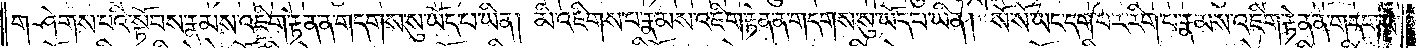གཤེགས་པའི་སྟོབས་རྣམས་འཇིག་རྟེན་ན་གདགས་སུ་ཡོད་པ་ཡིན། མི་འཇིགས་པ་རྣམས་འཇིག་རྟེན་ན་གདགས་སུ་ཡོད་པ་ཡིན། སོ་སོ་ཡང་དག་པར་རིག་པ་རྣམས་འཇིག་རྟེན་ན་གདགས་
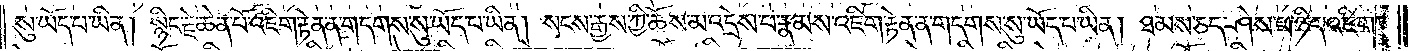སུ་ཡོད་པ་ཡིན། སྙིང་རྗེ་ཆེན་པོ་འཇིག་རྟེན་ན་གདགས་སུ་ཡོད་པ་ཡིན། སངས་རྒྱས་ཀྱི་ཆོས་མ་འདྲེས་པ་རྣམས་འཇིག་རྟེན་ན་གདགས་སུ་ཡོད་པ་ཡིན། ཐམས་ཅད་ཤེས་པ་ཉིད་འཇིག་
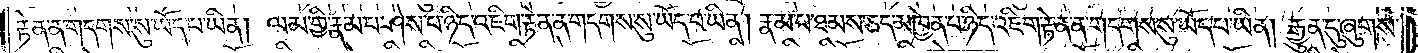རྟེན་ན་གདགས་སུ་ཡོད་པ་ཡིན། ལམ་གྱི་རྣམ་པ་ཤེས་པ་ཉིད་འཇིག་རྟེན་ན་གདགས་སུ་ཡོད་པ་ཡིན། རྣམ་པ་ཐམས་ཅད་མཁྱེན་པ་ཉིད་འཇིག་རྟེན་ན་གདགས་སུ་ཡོད་པ་ཡིན། རྒྱུན་དུ་ཞུགས་
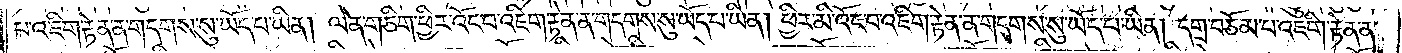པ་འཇིག་རྟེན་ན་གདགས་སུ་ཡོད་པ་ཡིན། ལན་གཅིག་ཕྱིར་འོང་བ་འཇིག་རྟེན་ན་གདགས་སུ་ཡོད་པ་ཡིན། ཕྱིར་མི་འོང་བ་འཇིག་རྟེན་ན་གདགས་སུ་ཡོད་པ་ཡིན། དགྲ་བཅོམ་པ་འཇིག་རྟེན་ན་
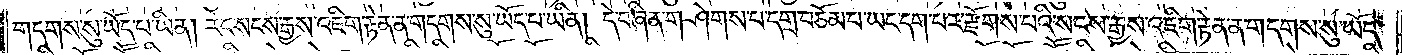གདགས་སུ་ཡོད་པ་ཡིན། རང་སངས་རྒྱས་འཇིག་རྟེན་ན་གདགས་སུ་ཡོད་པ་ཡིན། དེ་བཞིན་གཤེགས་པ་དགྲ་བཅོམ་པ་ཡང་དག་པར་རྫོགས་པའི་སངས་རྒྱས་འཇིག་རྟེན་ན་གདགས་སུ་ཡོད་
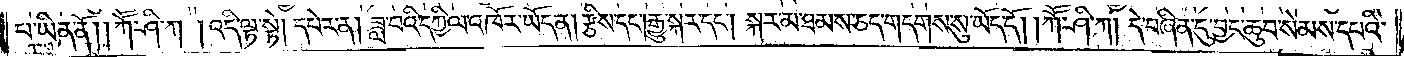པ་ཡིན་ནོ། །ཀཽ་ཤི་ཀ། འདི་ལྟ་སྟེ། དཔེར་ན། ཟླ་བའི་དཀྱིལ་འཁོར་ཡོད་ན། རྩིས་དང༌། རྒྱུ་སྐར་དང༌། སྐར་མ་ཐམས་ཅད་གདགས་སུ་ཡོད་དོ། །ཀཽ་ཤི་ཀ། དེ་བཞིན་དུ་བྱང་ཆུབ་སེམས་དཔའི་
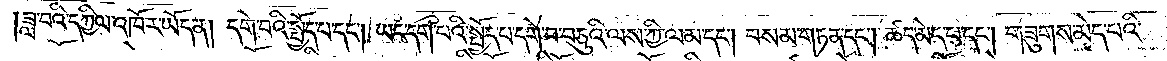ཟླ་བའི་དཀྱིལ་འཁོར་ཡོད་ན། དགེ་བའི་སྤྱོད་པ་དང༌། ཡང་དག་པའི་སྤྱོད་པ་དགེ་བ་བཅུའི་ལས་ཀྱི་ལམ་དང༌། བསམ་གཏན་དང༌། ཚད་མེད་པ་དང༌། གཟུགས་མེད་པའི་
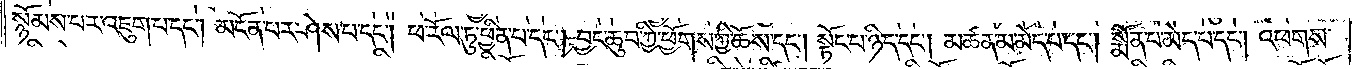སྙོམས་པར་འཇུག་པ་དང༌། མངོན་པར་ཤེས་པ་དང༌། ཕ་རོལ་ཏུ་ཕྱིན་པ་དང༌། བྱང་ཆུབ་ཀྱི་ཕྱོགས་ཀྱི་ཆོས་དང༌། སྟོང་པ་ཉིད་དང༌། མཚན་མ་མེད་པ་དང༌། སྨོན་པ་མེད་པ་དང༌། འཕགས་
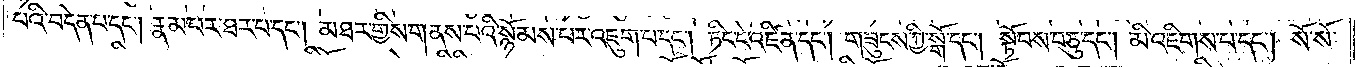པའི་བདེན་པ་དང༌། རྣམ་པར་ཐར་པ་དང༌། མཐར་གྱིས་གནས་པའི་སྙོམས་པར་འཇུག་པ་དང༌། ཏིང་ངེ་འཛིན་དང༌། གཟུངས་ཀྱི་སྒོ་དང༌། སྟོབས་བཅུ་དང༌། མི་འཇིགས་པ་དང༌། སོ་སོ་
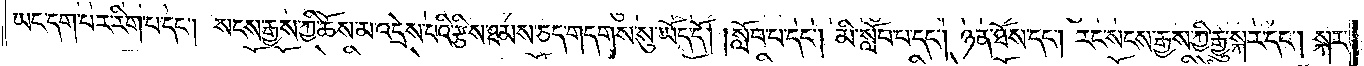ཡང་དག་པར་རིག་པ་དང༌། སངས་རྒྱས་ཀྱི་ཆོས་མ་འདྲེས་པའི་རྩི་ཐམས་ཅད་གདགས་སུ་ཡོད་དོ། །སློབ་པ་དང༌། མི་སློབ་པ་དང༌། ཉན་ཐོས་དང༌། རང་སངས་རྒྱས་ཀྱི་རྒྱུ་སྐར་དང༌། སྐར་
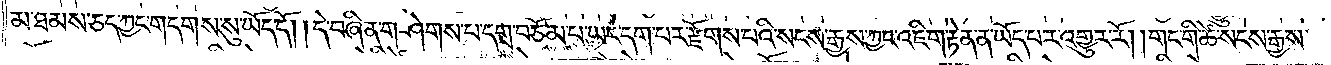མ་ཐམས་ཅད་ཀྱང་གདགས་སུ་ཡོད་དོ། །དེ་བཞིན་གཤེགས་པ་དགྲ་བཅོམ་པ་ཡང་དག་པར་རྫོགས་པའི་སངས་རྒྱས་ཀྱང་འཇིག་རྟེན་ན་ཡོད་པར་འགྱུར་རོ། །གང་གི་ཚེ་སངས་རྒྱས་
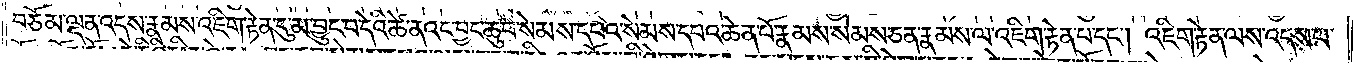བཅོམ་ལྡན་འདས་རྣམས་འཇིག་རྟེན་དུ་མ་བྱུང་བ་དེའི་ཚེ་ནའང་བྱང་ཆུབ་སེམས་དཔའ་སེམས་དཔའ་ཆེན་པོ་རྣམས་སེམས་ཅན་རྣམས་ལ་འཇིག་རྟེན་པ་དང༌། འཇིག་རྟེན་ལས་འདས་པ་
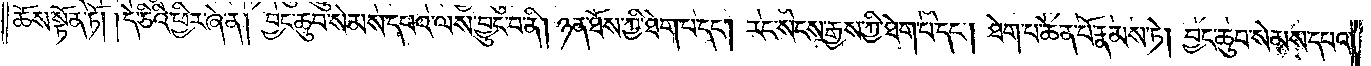ཆོས་སྟོན་ཏོ། །དེ་ཅིའི་ཕྱིར་ཞེ་ན། བྱང་ཆུབ་སེམས་དཔའ་ལས་བྱུང་བ་ནི། ཉན་ཐོས་ཀྱི་ཐེག་པ་དང༌། རང་སངས་རྒྱས་ཀྱི་ཐེག་པ་དང༌། ཐེག་པ་ཆེན་པོ་རྣམས་ཏེ། བྱང་ཆུབ་སེམས་དཔའ་
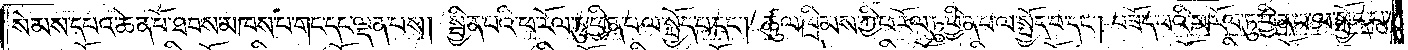སེམས་དཔའ་ཆེན་པོ་ཐབས་མཁས་པ་གང་དང་ལྡན་པས། སྦྱིན་པའི་ཕ་རོལ་ཏུ་ཕྱིན་པ་ལ་སྤྱོད་པ་དང༌། ཚུལ་ཁྲིམས་ཀྱི་ཕ་རོལ་ཏུ་ཕྱིན་པ་ལ་སྤྱོད་པ་དང༌། བཟོད་པའི་ཕ་རོལ་ཏུ་ཕྱིན་པ་ལ་སྤྱོད་པ་
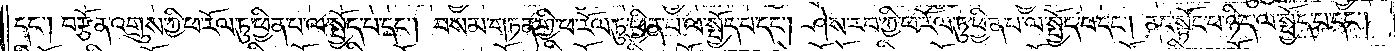དང༌། བརྩོན་འགྲུས་ཀྱི་ཕ་རོལ་ཏུ་ཕྱིན་པ་ལ་སྤྱོད་པ་དང༌། བསམ་གཏན་གྱི་ཕ་རོལ་ཏུ་ཕྱིན་པ་ལ་སྤྱོད་པ་དང༌། ཤེས་རབ་ཀྱི་ཕ་རོལ་ཏུ་ཕྱིན་པ་ལ་སྤྱོད་པ་དང༌། ནང་སྟོང་པ་ཉིད་ལ་སྤྱོད་པ་དང༌།
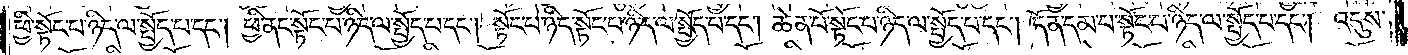ཕྱི་སྟོང་པ་ཉིད་ལ་སྤྱོད་པ་དང༌། ཕྱི་ནང་སྟོང་པ་ཉིད་ལ་སྤྱོད་པ་དང༌། སྟོང་པ་ཉིད་སྟོང་པ་ཉིད་ལ་སྤྱོད་པ་དང༌། ཆེན་པོ་སྟོང་པ་ཉིད་ལ་སྤྱོད་པ་དང༌། དོན་དམ་པ་སྟོང་པ་ཉིད་ལ་སྤྱོད་པ་དང༌། འདུས་
